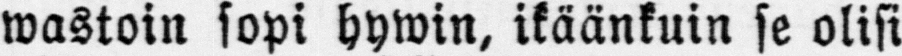wastoin sopi hywin, ikäänkuin se olisi
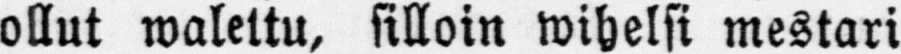ollut walettu, silloin wihelsi mestari
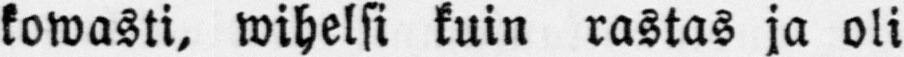kowasti, wihelsi kuin rastas ja oli
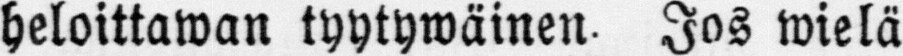heloittawan tyytywäinen. Jos wielä
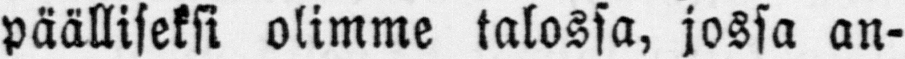päälliseksi olimme talossa, jossa an-
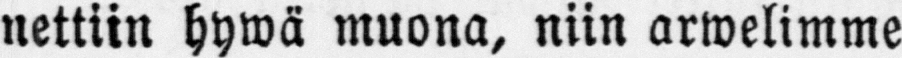nettiin hywä muona, niin arwelimme
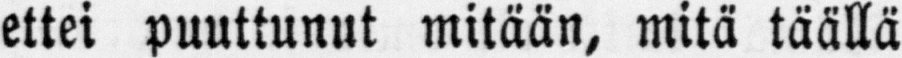ettei puuttunut mitään, mitä täällä
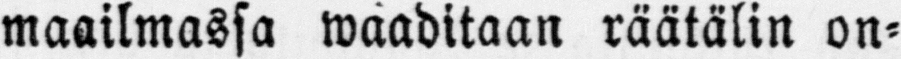maailmassa waaditaan räätälin on-
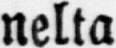nelta.
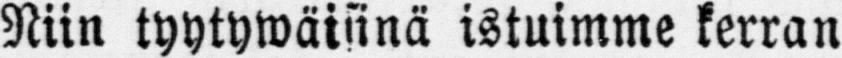Niin tyytywäisinä istuimme kerran
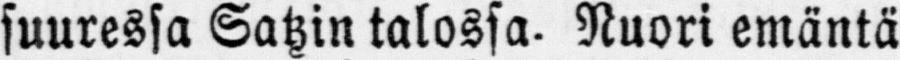suuressa Satzin talossa. Nuori emäntä
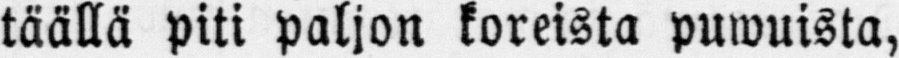täällä piti paljon koreista puwuista,
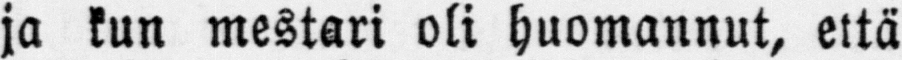ja kun mestari oli huomannut, että
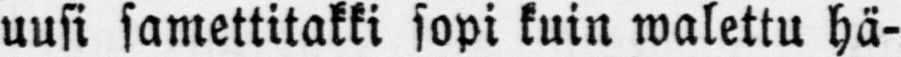uusi samettitakki sopi kuin walettu hä-
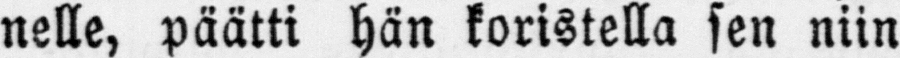nelle, päätti hän koristella sen niin
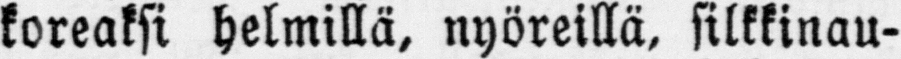koreaksi helmillä, nyöreillä, silkkinau-
